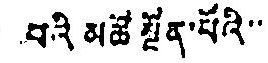བའི མཚོ སྔོན་པོའི་་
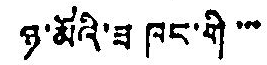ཉ་མོའི་ཟ ཁང་གི་་་
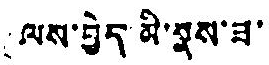ལས་བྱེད་མི་སྣས་ཟ་
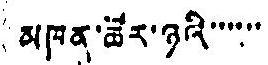མཁན་ཚོར་ཉའི་་་་་་
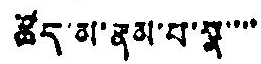ཚོད་མ་རྣམ་པ་སྣ་་་་
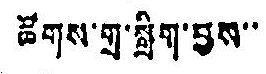ཚོགས་གྲ་སྒྲིག་བྱས་་
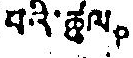པའི་ཚུལ。
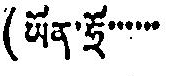(ཡོན་ཧྲོ་་་་་་་
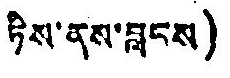ཏིས་ནས་བླངས)
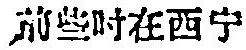前些时在西宁
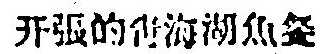开張的靑海湖魚餐
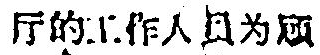厅的工作人員为頋
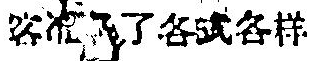客准备了各式各样
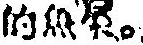的魚餐。
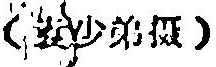（袁少弟摄）
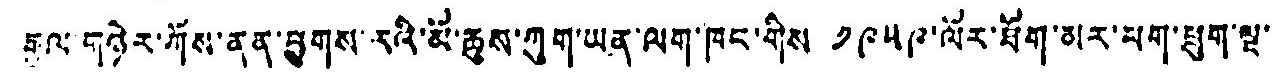རྒལ་གཉེར་ཀོས་ནན་ཕྱུགས་རའི་མོ་ཆུས་ཀུག་ཡན་ལག་ཁང་གིས ༡༩༥༩ ལོར་ཐོག་མར་པག་ཕྲུག་ལྔ་
